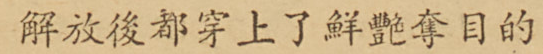解放後都穿上了鮮豔奪目的
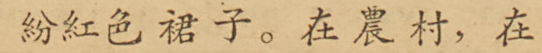粉紅色裙子。在農村，在
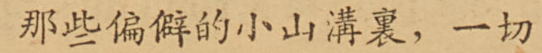那些偏僻的小山溝裏，一切
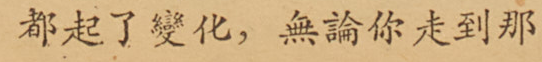都起了變化，無論你走到那
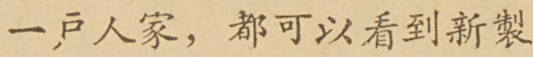一戶人家，都可以看到新製
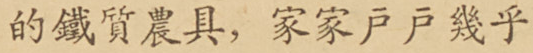的鐵質農具，家家戶戶幾乎
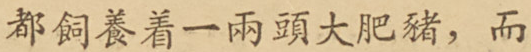都飼養着一兩頭大肥豬，而
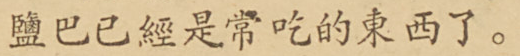鹽巴已經是常吃的東西了。
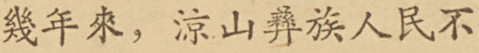幾年來，涼山彝族人民不
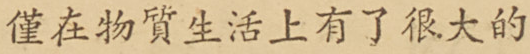僅在物質生活上有了很大的
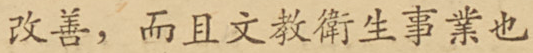改善，而且文教衛生事業也
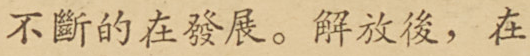不斷的在發展。解放後，在
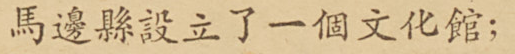馬邊縣設立了一個文化館；
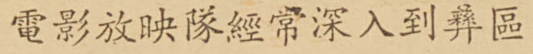電影放映隊經常深入到彝區
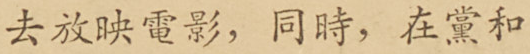去放映電影，同時，在黨和
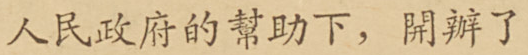人民政府的幫助下，開辦了
